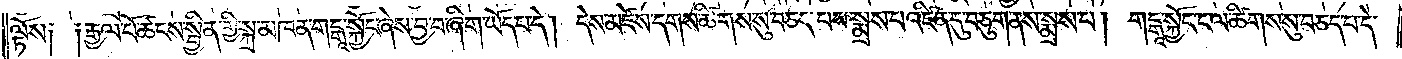ལྟོས༑ ༑རྒྱལ་པོ་ཚངས་སྦྱིན་གྱི་སྐྲ་མཁན་གངྒཱ་སྐྱོང་ཞེས་བྱ་བ་ཞིག་ཡོད་པ་དེ། དེས་མཛེས་དགས་ཚིགས་སུ་བཅད་པས་སྨྲས་པ་འཛིན་དུ་བཅུག་ནས་སྨྲས་པ། གངྒཱ་སྐྱོང་ང་ལ་ཚིགས་སུ་བཅད་པ་དེ་
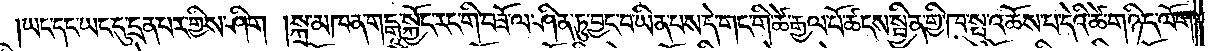ཡང་དང་ཡང་དུ་དྲན་པར་གྱིས་ཤིག །སྐྲ་མཁན་གངྒཱ་སྐྱོང་རང་གི་བཟོ་ལ་ཤིན་ཏུ་བྱང་བ་ཡིན་པས་དེ་གང་གི་ཚེ་རྒྱལ་པོ་ཚངས་སྦྱིན་གྱི་ཁ་སྤུ་འཆོས་པ་དེའི་ཚེ་གཉིད་ལོག་
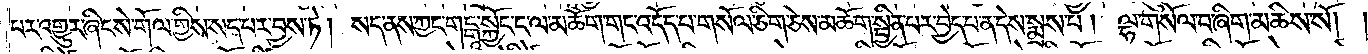པར་འགྱུར་ཞིང་སེ་གོལ་གྱིས་སད་པར་བྱས་ཏེ། སད་ནས་ཀྱང་གངྒཱ་སྐྱོང་ང་ལ་མཆོག་གང་འདོད་པ་གསོལ་ཅིག་ཅེས་མཆོག་སྦྱིན་པར་བྱེད་པ་ན་དེས་སྨྲས་པ། ལྷ་གསོལ་བ་ཞིག་མཆིས་སོ། །
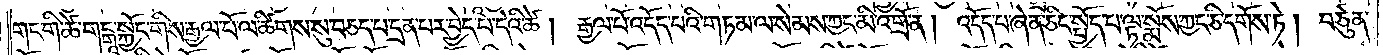གང་གི་ཚེ་གངྒཱ་སྐྱོང་གིས་རྒྱལ་པོ་ལ་ཚིགས་སུ་བཅད་པ་དྲན་པར་བྱེད་པ་དེའི་ཚེ། རྒྱལ་པོ་འདོད་པའི་གཏམ་ལ་སེམས་ཀྱང་མི་འགྲོ་ན། འདོད་པ་ཞེན་ཅིང་སྤྱོད་པ་ལྟ་སྨོས་ཀྱང་ཅི་དགོས་ཏེ། བཙུན་
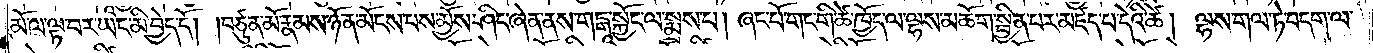མོ་ལ་ལྟ་བར་ཡང་མི་བྱེད་དོ། །བཙུན་མོ་རྣམས་ཉོན་མོངས་པས་མྱོས་ཤིང་ཞེན་ནས་གངྒཱ་སྐྱོང་ལ་སྨྲས་པ། ཞང་པོ་གང་གི་ཚེ་ཁྱོད་ལ་ལྷས་མཆོག་སྦྱིན་པར་མཛད་པ་དེའི་ཚེ། ལྷས་གལ་ཏེ་བདག་ལ་
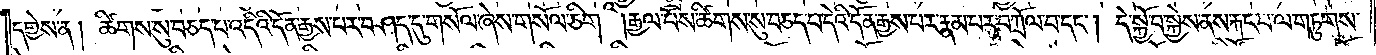དགྱེས་ན། ཚིགས་སུ་བཅད་པ་འདིའི་དོན་རྒྱས་པར་བཤད་དུ་གསོལ་ཞེས་གསོལ་ཅིག། རྒྱལ་པོས་ཚིགས་སུ་བཅད་པ་དེའི་དོན་རྒྱས་པར་རྣམ་པར་བཀྲོལ་བ་དང༌། དེ་སྐྱོ་བ་སྐྱེས་ནས་རྐང་པ་ལ་གཏུགས་
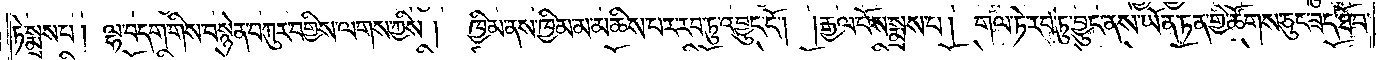ཏེ་སྨྲས་པ། ལྷ་བདག་གིས་བསྙེན་བཀུར་བགྱིས་ལགས་ཀྱིས། ཁྱིམ་ནས་ཁྱིམ་མ་མཆིས་པར་རབ་ཏུ་འབྱུང་ངོ༌། །རྒྱལ་པོས་སྨྲས་པ། གལ་ཏེ་རབ་ཏུ་བྱུང་ནས་ཡོན་ཏན་གྱི་ཚིགས་ཅུང་ཟད་ཐོབ་
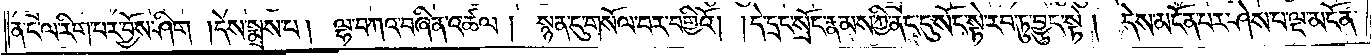ན་ང་ལ་རིག་པར་བྱོས་ཤིག །དེས་སྨྲས་པ།  ལྷ་བཀའ་བཞིན་འཚལ།  སྙན་དུ་གསོལ་བར་བགྱིའོ། །དེ་དྲང་སྲོང་རྣམས་ཀྱི་ནང་དུ་སོང་སྟེ་རབ་ཏུ་བྱུང་སྟེ། དེས་མངོན་པར་ཤེས་པ་ལྔ་མངོན་
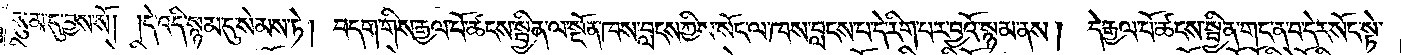སུམ་དུ་བྱས་སོ། །དེ་འདི་སྙམ་དུ་སེམས་ཏེ། བདག་གིས་རྒྱལ་པོ་ཚངས་སྦྱིན་ལ་སྔོན་ཁས་བླངས་ཀྱིས་སོང་ལ་ཁས་བླངས་པ་དེ་རིག་པར་བྱའོ་སྙམ་ནས། དེ་རྒྱལ་པོ་ཚངས་སྦྱིན་གང་ན་བ་དེར་སོང་སྟེ་
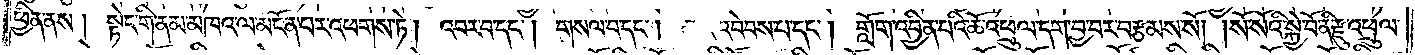ཕྱིན་ནས། སྟེང་གི་ནམ་མཁའ་ལ་མངོན་པར་འཕགས་ཏེ། འབར་བ་དང༌། གསལ་བ་དང༌།  ཆར་འབེབས་པ་དང༌། གློག་འབྱིན་པའི་ཆོ་འཕྲུལ་དག་བྱ་བར་བརྩམས་སོ། །སོ་སོའི་སྐྱེ་བོ་ནི་རྫུ་འཕྲུལ་
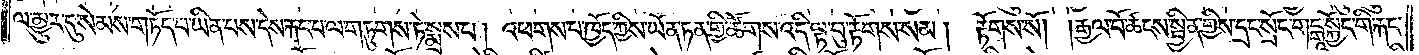ལ་མྱུར་དུ་སེམས་གཏོད་པ་ཡིན་པས་དེས་རྐང་པ་ལ་གཏུགས་ཏེ་སྨྲས་པ། འཕགས་པ་ཁྱོད་ཀྱིས་ཡོན་ཏན་གྱི་ཚོགས་འདི་ལྟ་བུ་རྟོགས་སམ། རྟོགས་སོ། །རྒྱལ་པོ་ཚངས་སྦྱིན་གྱིས་དྲང་སྲོང་གངྒཱ་སྐྱོང་གི་རྐང་
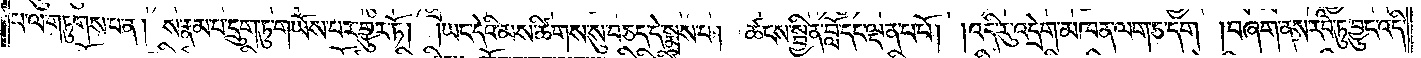པ་ལ་གཏུགས་པ་ན། ས་རྣམ་པ་དྲུག་ཏུ་གཡོས་པར་གྱུར་ཏོ། །ཡང་དེའི་མས་ཚིགས་སུ་བཅད་དེ་སྨྲས་པ། ཚངས་སྦྱིན་བློ་དང་ལྡན་པ་པོ། །འདི་རུ་འདྲེག་མཁན་ལག་ཅ་དག །བཞག་ནས་རབ་ཏུ་བྱུང་འདི་
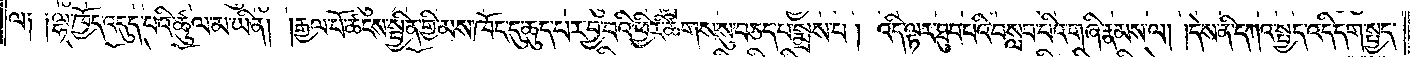ལ༑ ༑ལྷ་ཁྱོད་འདུད་པའི་ཚུལ་མ་ཡིན། །རྒྱལ་པོ་ཚངས་སྦྱིན་གྱི་མས་ཁོང་དུ་ཆུད་པར་བྱ་བའི་ཕྱིར་ཚིགས་སུ་བཅད་པ་སྨྲས་པ། འདི་ལྟར་ཐུབ་པའི་བསླབ་པའི་གཞི་རྣམས་ལ། །དེས་ནི་དཀའ་སྤྱད་འདི་དག་སྤྱད་
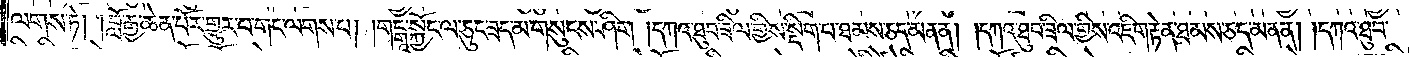ལགས་ཏེ། །བློ་རྒྱ་ཆེན་པོར་གྱུར་པ་གང་ལགས་པ། །གངྒཱ་སྐྱོང་ལ་ཆུང་ཟད་མ་གསུངས་ཤིག །དཀའ་ཐུབ་ཟིལ་གྱིས་སྡིག་པ་ཐམས་ཅད་མནན། །དཀའ་ཐུབ་ཟིལ་གྱིས་འཇིག་རྟེན་ཐམས་ཅད་མནན། །དཀའ་ཐུབ་
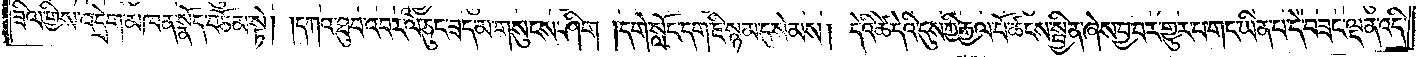ཟིལ་གྱིས་འདྲེག་མཁན་སྣོད་བཅོམ་སྟེ། །དཀའ་ཐུབ་འབར་ལ་ཅུང་ཟད་མ་གསུང་ཤིག། །དགེ་སློང་དག་ཇི་སྙམ་དུ་སེམས། དེའི་ཚེ་དེའི་དུས་ཀྱི་རྒྱལ་པོ་ཚངས་སྦྱིན་ཞེས་བྱ་བར་གྱུར་པ་གང་ཡིན་པ་དེ་བཟང་ལྡན་འདི་
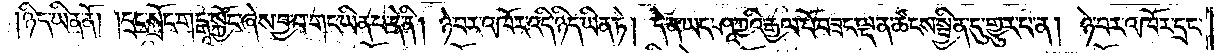།ཉིད་ཡིན་ནོ། །དྲང་སྲོང་གངྒཱ་སྐྱོང་ཞེས་བྱ་བ་གང་ཡིན་པ་དེ་ནི། ཉེ་བར་འཁོར་འདི་ཉིད་ཡིན་ཏེ། དེ་ན་ཡང་ཤཱཀྱའི་རྒྱལ་པོ་བཟང་ལྡན་ཚངས་སྦྱིན་དུ་གྱུར་པ་ན། ཉེ་བར་འཁོར་དྲང་
